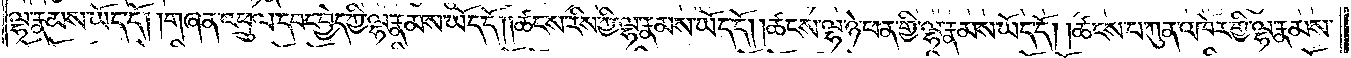ལྷ་རྣམས་ཡོད་དོ། །གཞན་འཕྲུལ་དབང་བྱེད་ཀྱི་ལྷ་རྣམས་ཡོད་དོ། །ཚངས་རིས་ཀྱི་ལྷ་རྣམས་ཡོད་དོ། །ཚངས་ལྷ་ཉེ་ཕན་གྱི་ལྷ་རྣམས་ཡོད་དོ། །ཚངས་པ་ཀུན་འཁོར་གྱི་ལྷ་རྣམས་
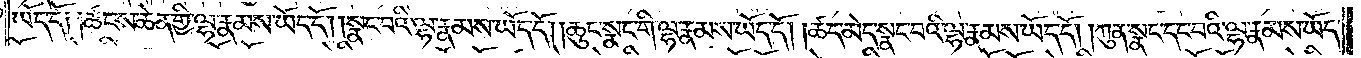ཡོད་དོ༑ ༑ཚངས་ཆེན་གྱི་ལྷ་རྣམས་ཡོད་དོ། །སྣང་བའི་ལྷ་རྣམས་ཡོད་དོ། །ཆུང་སྣང་གི་ལྷ་རྣམས་ཡོད་དོ། །ཚད་མེད་སྣང་བའི་ལྷ་རྣམས་ཡོད་དོ། །ཀུན་སྣང་དང་བའི་ལྷ་རྣམས་ཡོད་
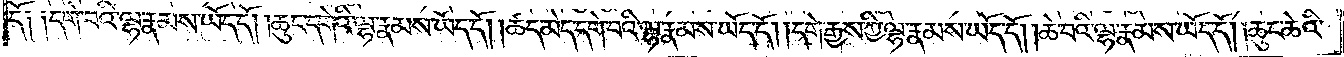དོ༑ ༑དགེ་བའི་ལྷ་རྣམས་ཡོད་དོ། །ཆུང་དགེའི་ལྷ་རྣམས་ཡོད་དོ། །ཚད་མེད་དགེ་བའི་ལྷ་རྣམས་ཡོད་དོ། །དགེ་རྒྱས་ཀྱི་ལྷ་རྣམས་ཡོད་དོ། །ཆེ་བའི་ལྷ་རྣམས་ཡོད་དོ། །ཆུང་ཆེའི་
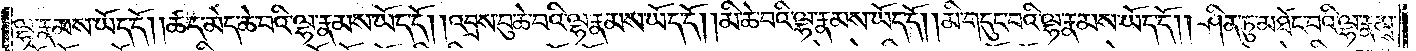ལྷ་རྣམས་ཡོད་དོ། །ཚད་མེད་ཆེ་བའི་ལྷ་རྣམས་ཡོད་དོ། །འབྲས་བུ་ཆེ་བའི་ལྷ་རྣམས་ཡོད་དོ། །མི་ཆེ་བའི་ལྷ་རྣམས་ཡོད་དོ། །མི་གདུང་བའི་ལྷ་རྣམས་ཡོད་དོ། །ཤིན་ཏུ་མཐོང་བའི་ལྷ་རྣམས་
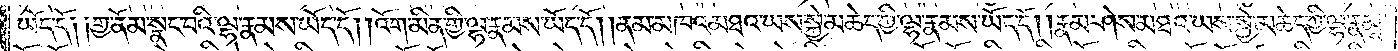ཡོད་དོ༑ ༑གྱ་ནོམ་སྣང་བའི་ལྷ་རྣམས་ཡོད་དོ། །འོག་མིན་གྱི་ལྷ་རྣམས་ཡོད་དོ། །ནམ་མཁའ་མཐའ་ཡས་སྐྱེ་མཆེད་ཀྱི་ལྷ་རྣམས་ཡོད་དོ། །རྣམ་ཤེས་མཐའ་ཡས་སྐྱེ་མཆེད་ཀྱི་ལྷ་རྣམས་
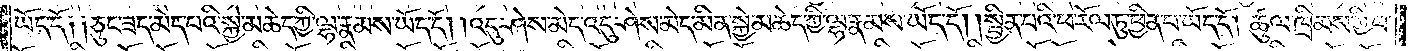ཡོད་དོ༑ ༑ཅུང་ཟད་མང་པའི་སྐྱེ་མཆེད་ཀྱི་ལྷ་རྣམས་ཡོད་དོ། །འདུ་ཤེས་མེད་འདུ་ཤེས་མེད་མིན་སྐྱེ་མཆེད་ཀྱི་ལྷ་རྣམས་ཡོད་དོ། །སྦྱིན་པའི་ཕ་རོལ་ཏུ་ཕྱིན་པ་ཡོད་དོ། །ཚུལ་ཁྲིམས་ཀྱི་ཕ་
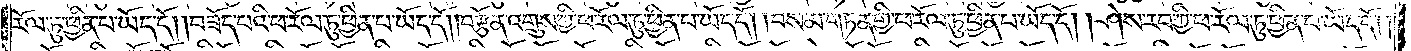རོལ་ཏུ་ཕྱིན་པ་ཡོད་དོ། །བཟོད་པའི་ཕ་རོལ་ཏུ་ཕྱིན་པ་ཡོད་དོ། །བརྩོན་འགྲུས་ཀྱི་ཕ་རོལ་ཏུ་ཕྱིན་པ་ཡོད་དོ། །བསམ་གཏན་གྱི་ཕ་རོལ་ཏུ་ཕྱིན་པ་ཡོད་དོ། །ཤེས་རབ་ཀྱི་ཕ་རོལ་ཏུ་ཕྱིན་པ་ཡོད་དོ༎
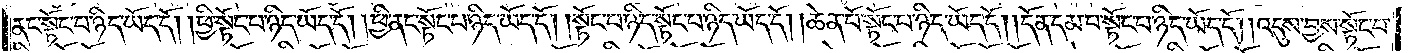ནང་སྟོང་པ་ཉིད་ཡོད་དོ། །ཕྱི་སྟོང་པ་ཉིད་ཡོད་དོ། །ཕྱི་ནང་སྟོང་པ་ཉིད་ཡོད་དོ། །སྟོང་པ་ཉིད་སྟོང་པ་ཉིད་ཡོད་དོ། །ཆེན་པོ་སྟོང་པ་ཉིད་ཡོད་དོ། །དོན་དམ་པ་སྟོང་པ་ཉིད་ཡོད་དོ། །འདུས་བྱས་སྟོང་པ་
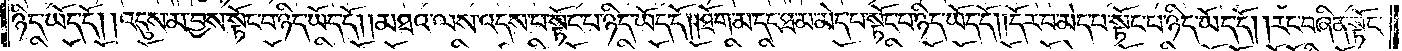ཉིད་ཡོད་དོ། །འདུས་མ་བྱས་སྟོང་པ་ཉིད་ཡོད་དོ། །མཐའ་ལས་འདས་པ་སྟོང་པ་ཉིད་ཡོད་དོ། །ཐོག་མ་དང་ཐ་མ་མེད་པ་སྟོང་པ་ཉིད་ཡོད་དོ། །དོར་བ་མེད་པ་སྟོང་པ་ཉིད་ཡོད་དོ། །རང་བཞིན་སྟོང་
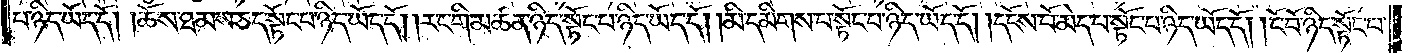པ་ཉིད་ཡོད་དོ། །ཆོས་ཐམས་ཅད་སྟོང་པ་ཉིད་ཡོད་དོ། །རང་གི་མཚན་ཉིད་སྟོང་པ་ཉིད་ཡོད་དོ། །མི་དམིགས་པ་སྟོང་པ་ཉིད་ཡོད་དོ། །དངོས་པོ་མེད་པ་སྟོང་པ་ཉིད་ཡོད་དོ། །ངོ་བོ་ཉིད་སྟོང་པ་
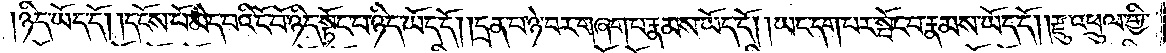ཉིད་ཡོད་དོ། །དངོས་པོ་མེད་པའི་ངོ་བོ་ཉིད་སྟོང་པ་ཉིད་ཡོད་དོ། །དྲན་པ་ཉེ་བར་གཞག་བ་རྣམས་ཡོད་དོ། །ཡང་དག་པར་སྤོང་བ་རྣམས་ཡོད་དོ། །རྫུ་འཕྲུལ་གྱི་
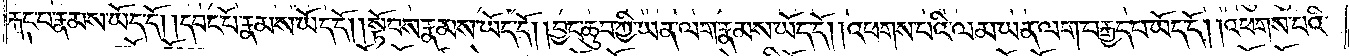རྐང་པ་རྣམས་ཡོད་དོ། །དབང་པོ་རྣམས་ཡོད་དོ། །སྟོབས་རྣམས་ཡོད་དོ། །བྱང་ཆུབ་ཀྱི་ཡན་ལག་རྣམས་ཡོད་དོ། །འཕགས་པའི་ལམ་ཡན་ལག་བརྒྱད་པ་ཡོད་དོ། །འཕགས་པའི་
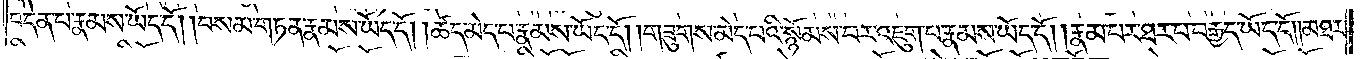བདེན་པ་རྣམས་ཡོད་དོ། །བསམ་གཏན་རྣམས་ཡོད་དོ། །ཚད་མེད་པ་རྣམས་ཡོད་དོ། །གཟུགས་མེད་པའི་སྙོམས་པར་འཇུག་པ་རྣམས་ཡོད་དོ། །རྣམ་པར་ཐར་པ་བརྒྱད་ཡོད་དོ། །མཐར་
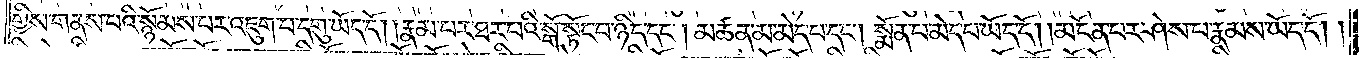གྱིས་གནས་པའི་སྙོམས་པར་འཇུག་པ་དགུ་ཡོད་དོ། །རྣམ་པར་ཐར་པའི་སྒོ་སྟོང་པ་ཉིད་དང༌། མཚན་མ་མེད་པ་དང༌། སྨོན་པ་མེད་པ་ཡོད་དོ། །མངོན་པར་ཤེས་པ་རྣམས་ཡོད་དོ། །
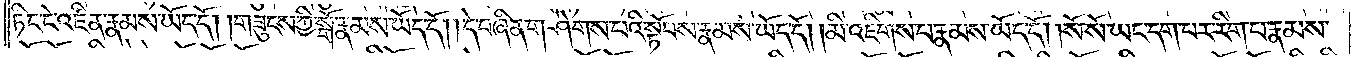ཏིང་ངེ་འཛིན་རྣམས་ཡོད་དོ། །གཟུངས་ཀྱི་སྒོ་རྣམས་ཡོད་དོ། །དེ་བཞིན་གཤེགས་པའི་སྟོབས་རྣམས་ཡོད་དོ། །མི་འཇིགས་པ་རྣམས་ཡོད་དོ། །སོ་སོ་ཡང་དག་པར་རིག་པ་རྣམས་
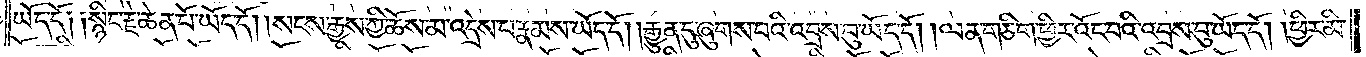ཡོད་དོ༑ ༑སྙིང་རྗེ་ཆེན་པོ་ཡོད་དོ། །སངས་རྒྱས་ཀྱི་ཆོས་མ་འདྲེས་པ་རྣམས་ཡོད་དོ། །རྒྱུན་དུ་ཞུགས་པའི་འབྲས་བུ་ཡོད་དོ། །ལན་གཅིག་ཕྱིར་འོང་བའི་འབྲས་བུ་ཡོད་དོ། །ཕྱིར་མི་
